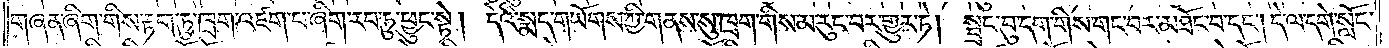གཞན་ཞིག་གིས་རྟག་ཏུ་ཁྲག་འཛག་པ་ཞིག་རབ་ཏུ་ཕྱུང་སྟེ། དེའི་སྨད་གཡོགས་ཀྱི་གནས་སུ་ཁྲག་གིས་མ་རུང་བར་གྱུར་ཏེ། སྦྲང་བུ་དག་གིས་གང་བར་མཐོང་བ་དང༌། དེ་ལ་དགེ་སློང་
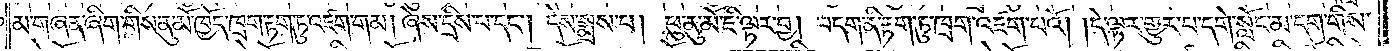མ་གཞན་ཞིག་གིས་ནུ་མོ་ཁྱོད་ཁྲག་རྟག་ཏུ་འཛག་གམ། ཞེས་དྲིས་པ་དང༌། དེས་སྨྲས་པ། ཕུ་ནུ་མོ་ཇི་ལྟར་བྱ། བདག་ནི་རྟག་ཏུ་ཁྲག་འཛག་པའོ། །དེ་ལྟར་གྱུར་པ་དགེ་སློང་མ་དག་གིས་
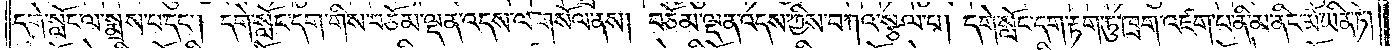དགེ་སློང་ལ་སྨྲས་པ་དང༌། དགེ་སློང་དག་གིས་བཅོམ་ལྡན་འདས་ལ་གསོལ་ནས། བཅོམ་ལྡན་འདས་ཀྱིས་བཀའ་སྩལ་པ། དགེ་སློང་དག་རྟག་ཏུ་ཁྲག་འཛག་པ་ནི་མ་ནིང་མོ་ཡིན་ཏེ།
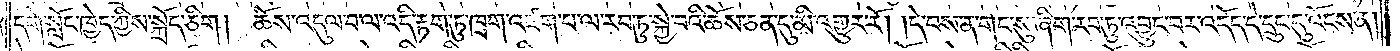དགེ་སློང་ཁྱེད་ཀྱིས་སྐྲོད་ཅིག །ཆོས་འདུལ་བ་ལ་འདི་རྟག་ཏུ་ཁྲག་འཛག་པ་ལ་རབ་ཏུ་སྐྱེ་བའི་ཆོས་ཅན་དུ་མི་འགྱུར་རོ། །དེ་བས་ན་གང་སུ་ཞིག་རབ་ཏུ་འབྱུང་བར་འདོད་དེ་དྲུང་དུ་འོངས་ན་
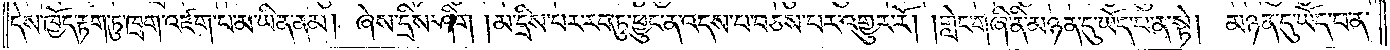དེས་ཁྱོད་རྟག་ཏུ་ཁྲག་འཛག་པ་མ་ཡིན་ནམ། ཞེས་དྲིས་ཤིག །མ་དྲིས་པར་རབ་ཏུ་ཕྱུང་ན་འདས་པ་བཅས་པར་འགྱུར་རོ། །གླེང་གཞི་ནི་མཉན་དུ་ཡོད་པ་ན་སྟེ། མཉན་དུ་ཡོད་པ་ན་
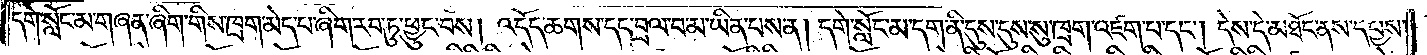དགེ་སློང་མ་གཞན་ཞིག་གིས་ཁྲག་མེད་པ་ཞིག་རབ་ཏུ་ཕྱུང་བས། འདོད་ཆགས་དང་བྲལ་བ་མ་ཡིན་པས་ན། དགེ་སློང་མ་དག་ནི་དུས་དུས་སུ་ཁྲག་འཛག་པ་དང༌། དེས་དེ་མཐོང་ནས་དཔྱས་
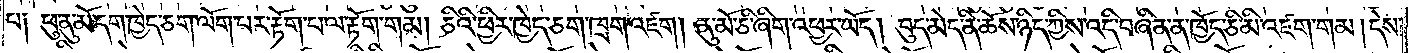པ། ཕུ་ནུ་མོ་དག་ཁྱེད་ཅག་ལོག་པར་རྟོག་པ་ལ་རྟོག་གམ། ཅིའི་ཕྱིར་ཁྱེད་ཅག་ཁྲག་འཛག །ནུ་མོ་ཅི་ཞིག་འཕྱར་ཡོད། བུད་མེད་ནི་ཆོས་ཉིད་ཀྱིས་འདི་བཞིན་ན་ཁྱོད་ཅི་མི་འཛག་གམ། དེས་
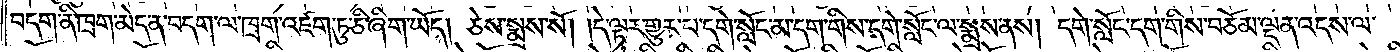བདག་ནི་ཁྲག་མེད་ན་བདག་ལ་ཁྲག་འཛག་ཏུ་ཅི་ཞིག་ཡོད། ཅེས་སྨྲས་སོ། །དེ་ལྟར་གྱུར་པ་དགེ་སློང་མ་དག་གིས་དགེ་སློང་ལ་སྨྲས་ནས། དགེ་སློང་དག་གིས་བཅོམ་ལྡན་འདས་ལ་
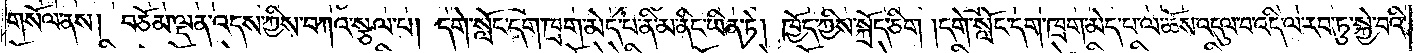གསོལ་ནས། བཅོམ་ལྡན་འདས་ཀྱིས་བཀའ་སྩལ་པ། དགེ་སློང་དག་ཁྲག་མེད་པ་ནི་མ་ནིང་ཡིན་ཏེ། ཁྱོད་ཀྱིས་སྐྲོད་ཅིག །དགེ་སློང་དག་ཁྲག་མེད་པ་ལ་ཆོས་འདུལ་བ་འདི་ལ་རབ་ཏུ་སྐྱེ་བའི་
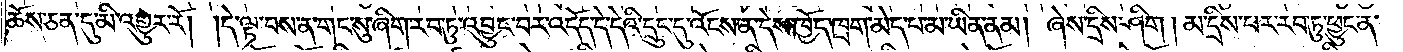ཆོས་ཅན་དུ་མི་འགྱུར་རོ། །དེ་ལྟ་བས་ན་གང་སུ་ཞིག་རབ་ཏུ་འབྱུང་བར་འདོད་དེ་དེའི་དྲུང་དུ་འོངས་ན་དེས་ཁྱོད་ཁྲག་མེད་པ་མ་ཡིན་ནམ། ཞེས་དྲིས་ཤིག །མ་དྲིས་པར་རབ་ཏུ་ཕྱུང་ན་
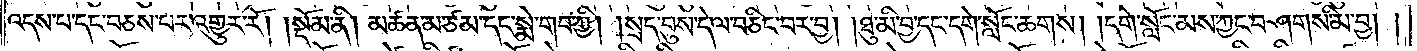འདས་པ་དང་བཅས་པར་འགྱུར་རོ།    །སྡོམ་ནི། མཚན་མ་ཙམ་དང་སྨེ་གབ་ཀྱི། །སྲད་བུས་དེ་ལ་བཅིང་བར་བྱ། །ཐུ་མི་བྱ་དང་དགེ་སློང་ཆགས། །དགེ་སློང་མས་ཀྱང་བཤགས་མི་བྱ། །
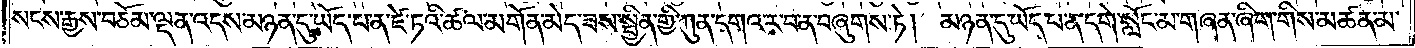སངས་རྒྱས་བཅོམ་ལྡན་འདས་མཉན་དུ་ཡོད་པ་ན་ཛེ་ཏའི་ཚལ་མགོན་མེད་ཟས་སྦྱིན་གྱི་ཀུན་དགའ་ར་བ་ན་བཞུགས་ཏེ། མཉན་དུ་ཡོད་པ་ན་དགེ་སློང་མ་གཞན་ཞིག་གིས་མཚན་མ་
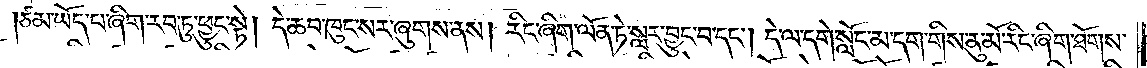།ཙམ་ཡོད་པ་ཞིག་རབ་ཏུ་ཕྱུང་སྟེ། དེ་ཆབ་ཁུང་སར་ཞུགས་ནས། རིང་ཞིག་ལོན་ཏེ་སླར་བྱུང་བ་དང༌། དེ་ལ་དགེ་སློང་མ་དག་གིས་ནུ་མོ་རིང་ཞིག་ཐོགས་
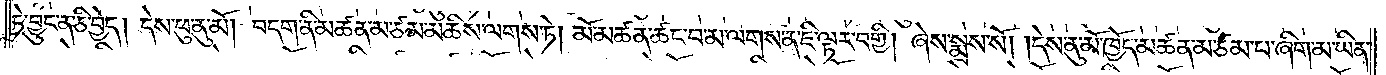ཏེ་བྱུང་ན་ཅི་བྱེད། དེས་ཕུ་ནུ་མོ། །བདག་ནི་མཚན་མ་ཙམ་མཆིས་ལགས་ཏེ། མོ་མཚན་ཚང་བ་མ་ལགས་ན་ཇི་ལྟར་བགྱི། ཞེས་སྨྲས་སོ། །དེས་ནུ་མོ་ཁྱོད་མཚན་མ་ཙམ་པ་ཞིག་མ་ཡིན་
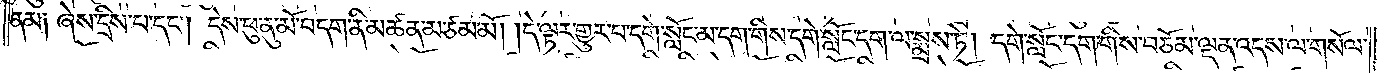ནམ། ཞེས་དྲིས་པ་དང༌། དེས་ཕུ་ནུ་མོ་བདག་ནི་མཚན་མ་ཙམ་མོ། །དེ་ལྟར་གྱུར་པ་དགེ་སློང་མ་དག་གིས་དགེ་སློང་དག་མ་ལ་སྨྲས་ཏེ། དགེ་སློང་དག་གིས་བཅོམ་ལྡན་འདས་ལ་གསོལ་
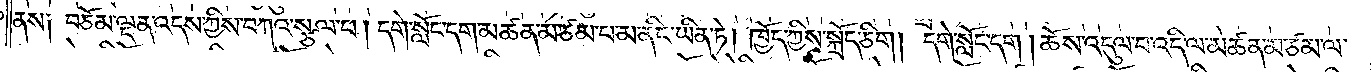ནས། བཅོམ་ལྡན་འདས་ཀྱིས་བཀའ་སྩལ་པ། དགེ་སློང་དག་མཚན་མ་ཙམ་པ་མ་ནིང་ཡིན་ཏེ། ཁྱོད་ཀྱིས་སྐྲོད་ཅིག །དགེ་སློང་དག །ཆོས་འདུལ་བ་འདི་ལ་མཚན་མ་ཙམ་ལ་
